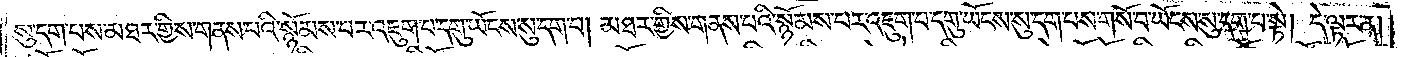སུ་དག་པས་མཐར་གྱིས་གནས་པའི་སྙོམས་པར་འཇུག་པ་དགུ་ཡོངས་སུ་དག་པ། མཐར་གྱིས་གནས་པའི་སྙོམས་པར་འཇུག་པ་དགུ་ཡོངས་སུ་དག་པས་གསོ་བ་ཡོངས་སུ་དག་པ་སྟེ། དེ་ལྟར་ན།
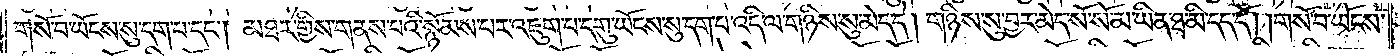གསོ་བ་ཡོངས་སུ་དག་པ་དང༌། མཐར་གྱིས་གནས་པའི་སྙོམས་པར་འཇུག་པ་དགུ་ཡོངས་སུ་དག་པ་འདི་ལ་གཉིས་སུ་མེད་དེ། གཉིས་སུ་བྱར་མེད་སོ་སོ་མ་ཡིན་ཐ་མི་དད་དོ། །གསོ་བ་ཡོངས་
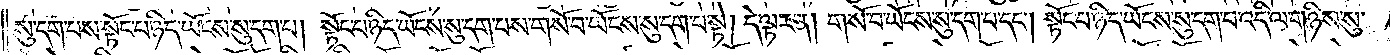སུ་དག་པས་སྟོང་པ་ཉིད་ཡོངས་སུ་དག་པ། སྟོང་པ་ཉིད་ཡོངས་སུ་དག་པས་གསོ་བ་ཡོངས་སུ་དག་པ་སྟེ། དེ་ལྟར་ན། གསོ་བ་ཡོངས་སུ་དག་པ་དང༌། སྟོང་པ་ཉིད་ཡོངས་སུ་དག་པ་འདི་ལ་གཉིས་སུ་
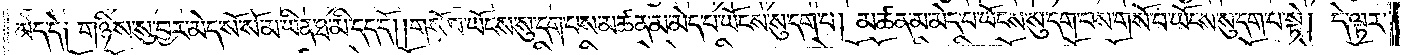མེད་དེ༑ གཉིས་སུ་བྱར་མེད་སོ་སོ་མ་ཡིན་ཐ་མི་དད་དོ། །གསོ་བ་ཡོངས་སུ་དག་པས་མཚན་མ་མེད་པ་ཡོངས་སུ་དག་པ། མཚན་མ་མེད་པ་ཡོངས་སུ་དག་པས་གསོ་བ་ཡོངས་སུ་དག་པ་སྟེ། དེ་ལྟར་
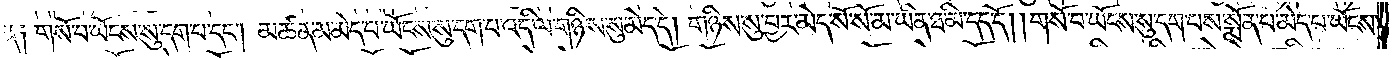ན༑ གསོ་བ་ཡོངས་སུ་དག་པ་དང༌། མཚན་མ་མེད་པ་ཡོངས་སུ་དག་པ་འདི་ལ་གཉིས་སུ་མེད་དེ། གཉིས་སུ་བྱར་མེད་སོ་སོ་མ་ཡིན་ཐ་མི་དད་དོ། །གསོ་བ་ཡོངས་སུ་དག་པས་སྨོན་པ་མེད་པ་ཡོངས་
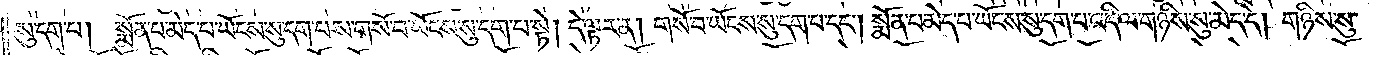སུ་དག་པ། སྨོན་པ་མེད་པ་ཡོངས་སུ་དག་པས་གསོ་བ་ཡོངས་སུ་དག་པ་སྟེ། དེ་ལྟར་ན། གསོ་བ་ཡོངས་སུ་དག་པ་དང༌། སྨོན་པ་མེད་པ་ཡོངས་སུ་དག་པ་འདི་ལ་གཉིས་སུ་མེད་དེ། གཉིས་སུ་
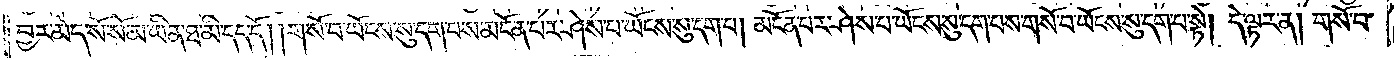བྱར་མེད་སོ་སོ་མ་ཡིན་ཐ་མི་དད་དོ། །གསོ་བ་ཡོངས་སུ་དག་པས་མངོན་པར་ཤེས་པ་ཡོངས་སུ་དག་པ། མངོན་པར་ཤེས་པ་ཡོངས་སུ་དག་པས་གསོ་བ་ཡོངས་སུ་དག་པ་སྟེ། དེ་ལྟར་ན། གསོ་བ་
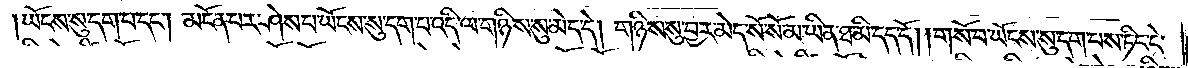ཡོངས་སུ་དག་པ་དང༌། མངོན་པར་ཤེས་པ་ཡོངས་སུ་དག་པ་འདི་ལ་གཉིས་སུ་མེད་དེ། གཉིས་སུ་བྱར་མེད་སོ་སོ་མ་ཡིན་ཐ་མི་དད་དོ། །གསོ་བ་ཡོངས་སུ་དག་པས་ཏིང་ངེ་
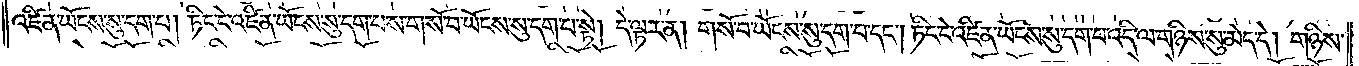འཛིན་ཡོངས་སུ་དག་པ། ཏིང་ངེ་འཛིན་ཡོངས་སུ་དག་པས་གསོ་བ་ཡོངས་སུ་དག་པ་སྟེ། དེ་ལྟར་ན། གསོ་བ་ཡོངས་སུ་དག་པ་དང༌། ཏིང་ངེ་འཛིན་ཡོངས་སུ་དག་པ་འདི་ལ་གཉིས་སུ་མེད་དེ། གཉིས་
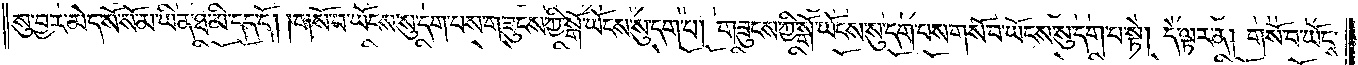སུ་བྱར་མེད་སོ་སོ་མ་ཡིན་ཐ་མི་དད་དོ། །གསོ་བ་ཡོངས་སུ་དག་པས་གཟུངས་ཀྱི་སྒོ་ཡོངས་སུ་དག་པ། གཟུངས་ཀྱི་སྒོ་ཡོངས་སུ་དག་པས་གསོ་བ་ཡོངས་སུ་དག་པ་སྟེ། དེ་ལྟར་ན། གསོ་བ་ཡོངས་
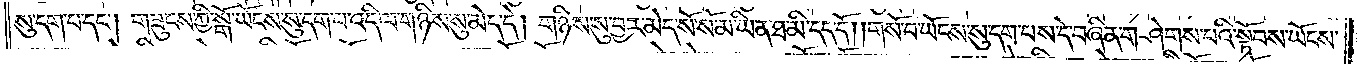སུ་དག་པ་དང༌། གཟུངས་ཀྱི་སྒོ་ཡོངས་སུ་དག་པ་འདི་ལ་གཉིས་སུ་མེད་དེ། གཉིས་སུ་བྱར་མེད་སོ་སོ་མ་ཡིན་ཐ་མི་དད་དོ། །གསོ་བ་ཡོངས་སུ་དག་པས་དེ་བཞིན་གཤེགས་པའི་སྟོབས་ཡོངས་
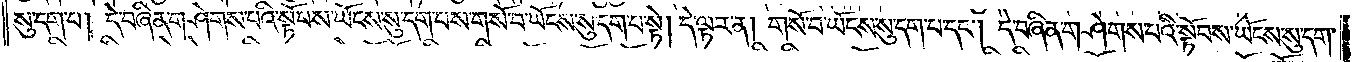སུ་དག་པ། དེ་བཞིན་གཤེགས་པའི་སྟོབས་ཡོངས་སུ་དག་པས་གསོ་བ་ཡོངས་སུ་དག་པ་སྟེ། དེ་ལྟར་ན། གསོ་བ་ཡོངས་སུ་དག་པ་དང༌། དེ་བཞིན་གཤེགས་པའི་སྟོབས་ཡོངས་སུ་དག་
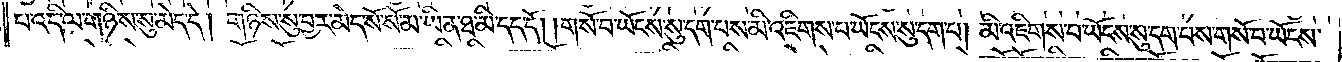པ་འདི་ལ་གཉིས་སུ་མེད་དེ། གཉིས་སུ་བྱར་མེད་སོ་སོ་མ་ཡིན་ཐ་མི་དད་དོ། །གསོ་བ་ཡོངས་སུ་དག་པས་མི་འཇིགས་པ་ཡོངས་སུ་དག་པ། མི་འཇིགས་པ་ཡོངས་སུ་དག་པས་གསོ་བ་ཡོངས་
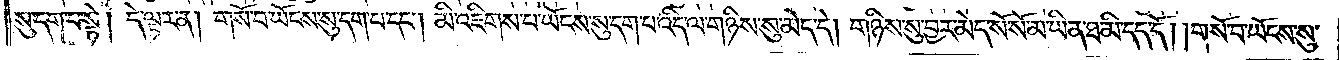སུ་དག་པ་སྟེ། དེ་ལྟར་ན། གསོ་བ་ཡོངས་སུ་དག་པ་དང༌། མི་འཇིགས་པ་ཡོངས་སུ་དག་པ་འདི་ལ་གཉིས་སུ་མེད་དེ། གཉིས་སུ་བྱར་མེད་སོ་སོ་མ་ཡིན་ཐ་མི་དད་དོ། །གསོ་བ་ཡོངས་སུ་
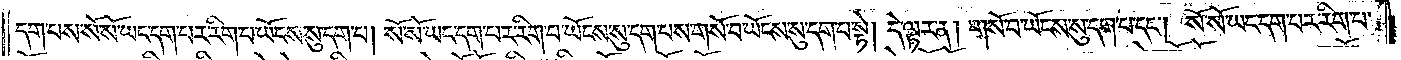དག་པས་སོ་སོ་ཡང་དག་པར་རིག་པ་ཡོངས་སུ་དག་པ། སོ་སོ་ཡང་དག་པར་རིག་པ་ཡོངས་སུ་དག་པས་གསོ་བ་ཡོངས་སུ་དག་པ་སྟེ། དེ་ལྟར་ན། གསོ་བ་ཡོངས་སུ་དག་པ་དང༌། སོ་སོ་ཡང་དག་པར་རིག་པ་
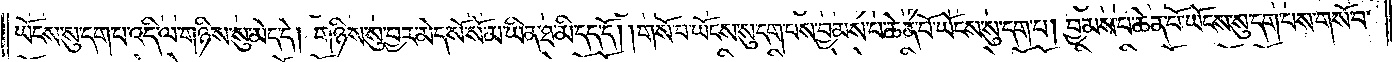ཡོངས་སུ་དག་པ་འདི་ལ་གཉིས་སུ་མེད་དེ། གཉིས་སུ་བྱར་མེད་སོ་སོ་མ་ཡིན་ཐ་མི་དད་དོ། །གསོ་བ་ཡོངས་སུ་དག་པས་བྱམས་པ་ཆེན་པོ་ཡོངས་སུ་དག་པ། བྱམས་པ་ཆེན་པོ་ཡོངས་སུ་དག་པས་གསོ་བ་
